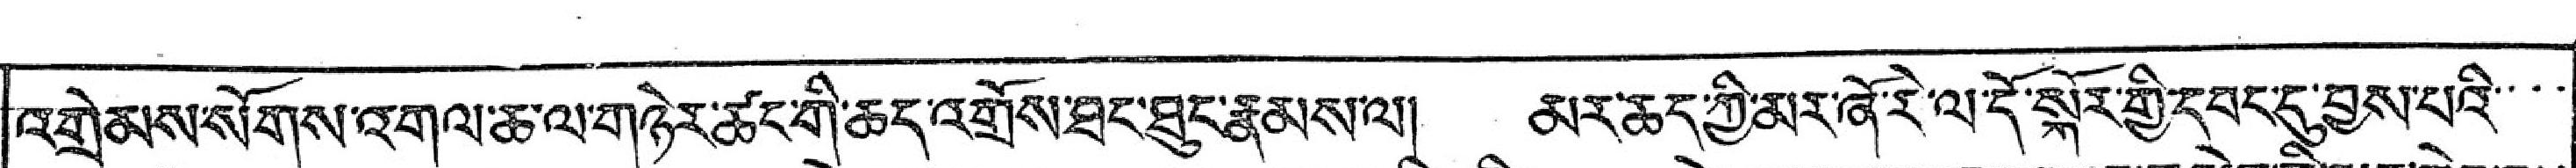འགྲེམས་སོགས་འགལ་ཆ་ལ་གཉེར་ཚང་གི་ཆད་འགྲོས་ཐང་ཐུང་རྣམས་ལ། མར་ཆད་ཀྱི་མར་ཞོ་རེ་ལ་དོ་སྐོར་གྱི་དབང་དུ་བྱས་པའི་་་་
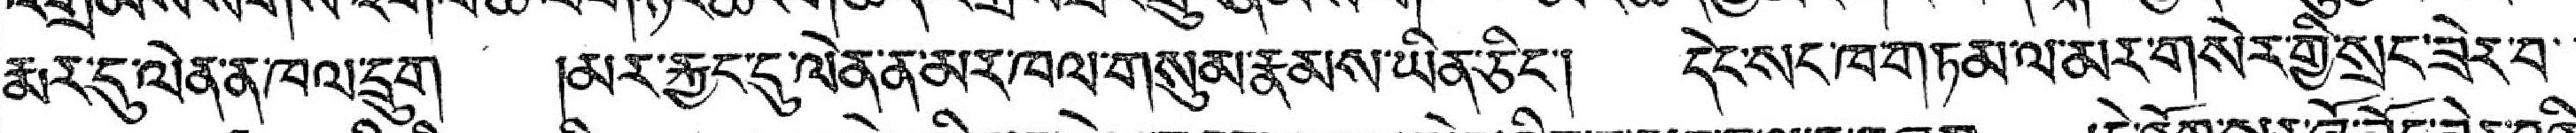རྨར་དུ་ལེན་ན་ཁལ་དྲུག །མར་རྐྱང་དུ་ལེན་ན་མར་ཁལ་གསུམ་རྣམས་ཡིན་ཅིང་། དེང་སང་ཁ་གཏམ་ལ་མར་གསེར་གྱི་སྲང་ཟེར་བ་་
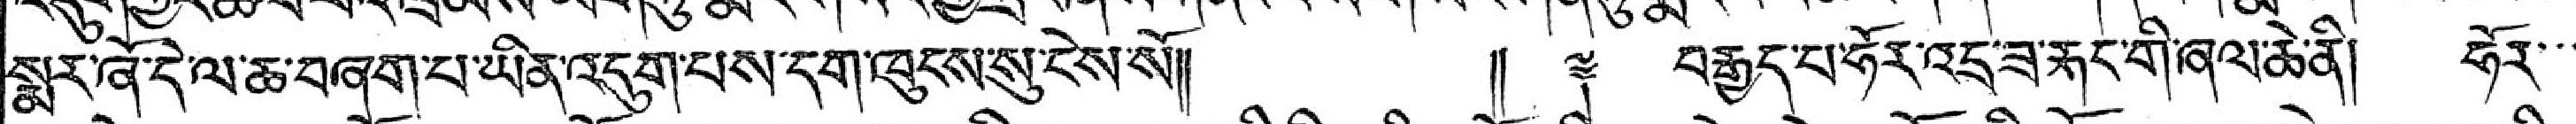སྨར་ཞོ་དེ་ལ་ཆ་བཞག་པ་ཡིན་འདུག་པས་དག་ཁུངས་སུ་ངེས་སོ།།  །། ༈ བརྒྱད་པ་ཧོར་འདྲ་ཟ་རྐང་གི་ཞལ་ཆེ་ནི། ཧོར་་་
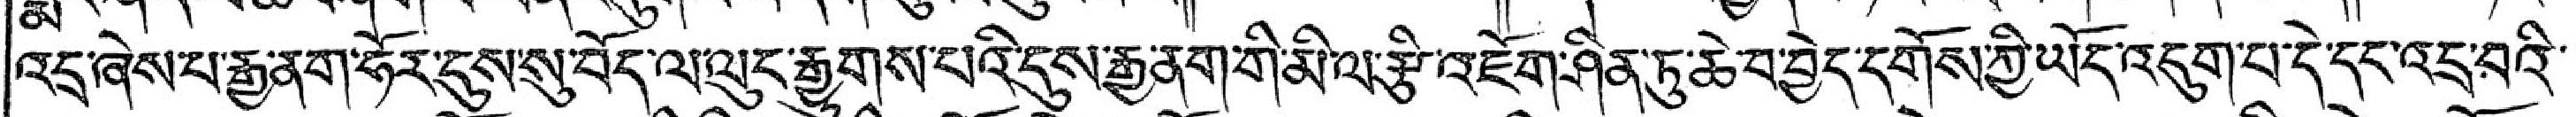འདྲ་ཞེས་པ་རྒྱ་ནག་ཧོར་དུས་སུ་བོད་ལ་ལུང་རྒྱུགས་པའི་དུས་རྒྱ་ནག་གི་མི་ལ་རྩི་འཇོག་ཤིན་ཏུ་ཆེ་བ་བྱེད་དགོས་ཀྱི་ཡོད་འདུག་པ་དེ་དང་འདྲ་བའི་་
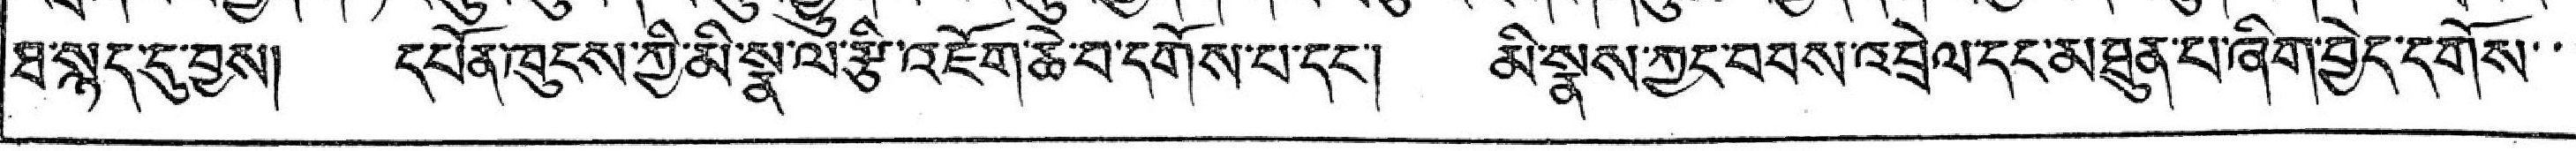ཐ་སྙད་དུ་བྱས། དཔོན་ཁུངས་ཀྱི་མི་སྣ་ལ་རྩི་འཇོག་ཆེ་བ་དགོས་པ་དང་། མི་སྣས་ཀྱང་བབས་འབྲེལ་དང་མཐུན་པ་ཞིག་བྱེད་དགོས་་་
